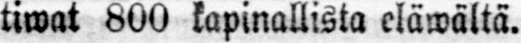tiwat 800 kapinallista eläwältä.
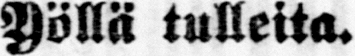Yöllä tulleita.
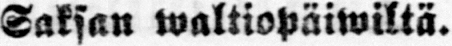Saksan waltiopäiwiltä.
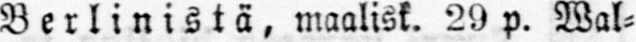Berlinistä, maalisk. 29 p. Wal-
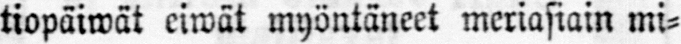tiopäiwät eiwät myöntäneet meriasiain mi-
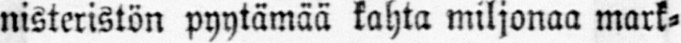nisteristön pyytämää kahta miljonaa mark-
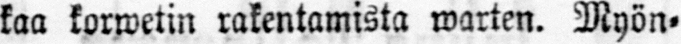kaa korwetin rakentamista warten. Myön-
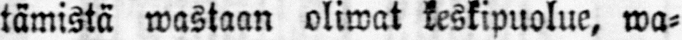tämistä wastaan oliwat keskipuolue, wa-
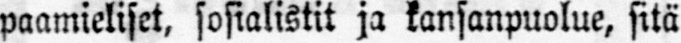paamieliset, sosialistit ja kansanpuolue, sitä
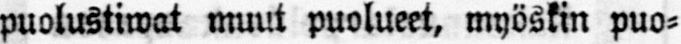puolustiwat muut puolueet, myöskin puo-
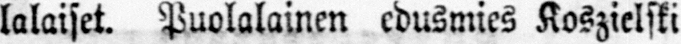lalaiset. Puolalainen edusmies Koszielski
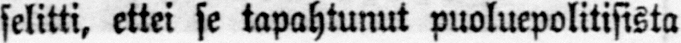selitti, ettei se tapahtunut puoluepolitisista
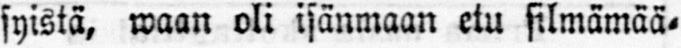syistä, waan oli isänmaan etu silmämää-
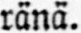ränä.
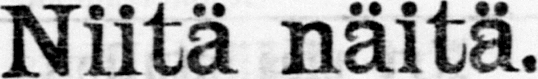Niitä näitä.
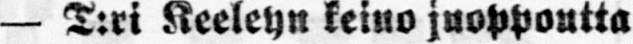— T:ri Keeleyn keino juoppoutta
